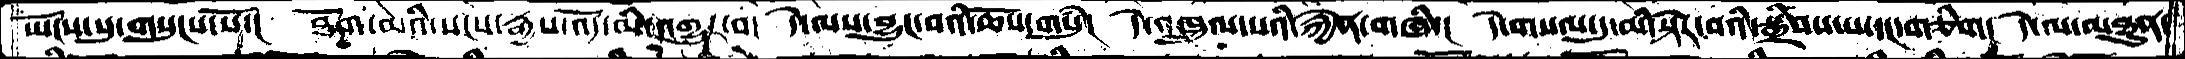ཡོངས་སུ་གསུངས་སོ་།  ཐོག་མའི་སངས་རྒྱས་འོད་མི་འགྱུར་བ།  དེ་ལས་བྱུང་བའི་ཆོས་གསུཾ།  དེ་འཁྲུལ་པའི་རྐྱེན་གཞི་།  དེ་གསལ་དུ་མི་སྟེར་བའི་སྒྲིབས་པ་དང་གཅིག།  དེ་ལ་མཐུན་
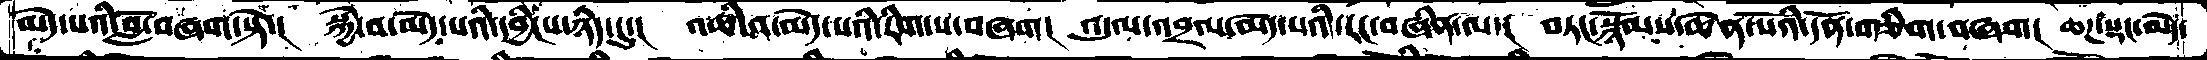མེད་པའི་བློ་བཞག་སྟེ་།  སྐྱེ་བ་མེད་པའི་དབྱིངས་ཉིད་དུ་།  འཆི་བ་མེད་པའི་རིག་པ་བཞག།  འདུལ་འབྲལ་མེད་པའི་རང་བཞིན་ལ་།  བཏང་སྙོམས་ཆེན་པོའི་དོན་གཅིག་བཞག།  ཆཌ་སྡང་མེད་
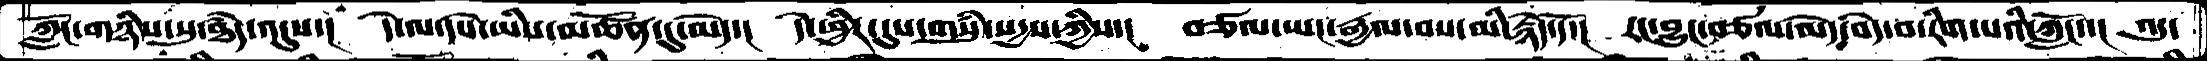ཀློང་གཉིས་སུ་ཐདཾ་འདུས་།  དེ་ལ་དཔེ་ཡིས་མཚོན་དུ་མེད་།  དེ་ཕྱིར་དུས་གསུཾ་སདྱས་ཀྱིས་།  བཙལ་ཡང་རྒྱལ་བས་མི་རྙེད་དོ་།  རང་བྱུང་བཙལ་མེད་བདེ་བ་རིག་པའི་ཀློང་་།  འདུ་
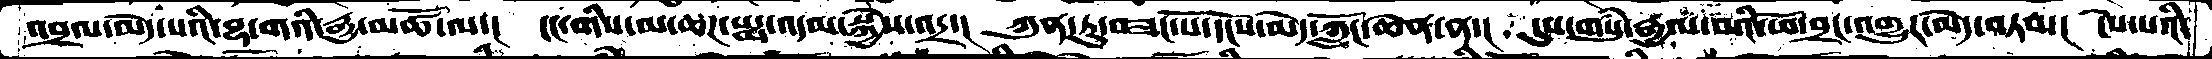འབྲལ་མེད་པའི་བྷ་གའི་རྒྱུ་མཚོ་ལ་།  ངང་གིས་མ་ཆཌ་པདྨ་འདམ་སྐྱེས་འདྲ་།  ཀུན་ཏུ་བཟང་པོ་དངོས་མེད་ཀློང་ཆེན་ན་།  དུས་གསུཾ་རྒྱལ་བའི་ཕོ་བྲང་འགྱུར་མེད་བཏབ།  ངེས་པའི་
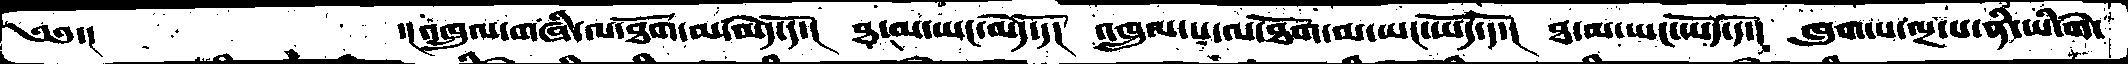༄༅་།      ་།འཁྲུལ་གཞི་ལ་ཐོག་མ་མེད་དོ།  ཐ་མ་ཡང་མེད་དོ།  འཁྲུལ་པ་ལ་ཐོག་མ་ཡང་ཡོད་དོ་།  ཐ་མ་ཡང་ཡོད་དོ་།  ཁུག་པ་ལྔ་པ་ནི་ཡི་གེ་
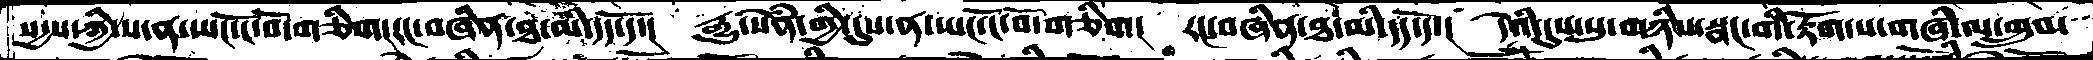སདྱས་ཀྱི་ས་ན་ཡང་ངོ་བོ་གཅིག་རང་བཞིན་ཐ་མི་དད་དོ་།  རྒྱུ་སེཾན་གྱི་དུས་ན་ཡང་ངོ་བོ་གཅིག།  རང་བཞིན་ཐ་མི་དད་དོ་།  དེའི་དུས་སུ་གཉིས་སྣང་གི་རྟོག་པ་གཞི་ལ་གྲུབ་
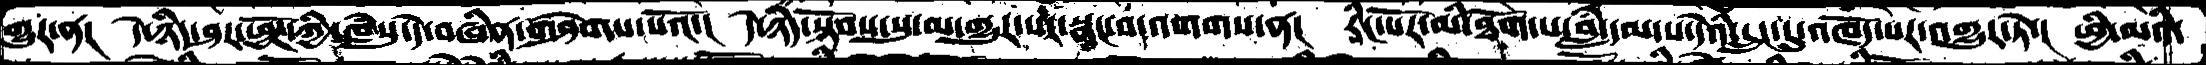གྱུར་ན།  དེ་ཉིད་ཤར་ཕྱོཌ་ཀྱི་ཁཾསུ་དེ་བཞིན་གཤེགས་པའོ་།  དེ་ཉིད་སྟོབས་སུ་མ་གྱུར་པར་སྣང་བ་འགགས་ན།  རིང་པོར་མི་ཐོག་པ་བླཾ་དམ་པ་དེའི་དྲུང་དུ་འཁོད་པར་འགྱུར་ཏེ་།   ཕྱི་མའི་
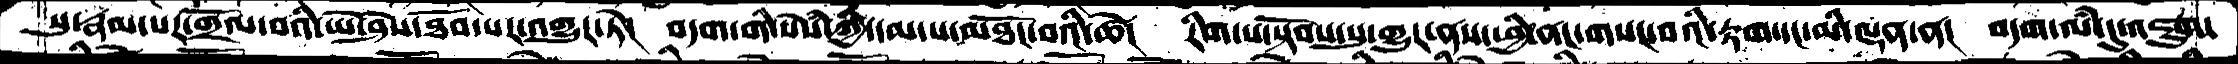སུ་རྣམ་པར་གྲོལ་བའི་ཡེ་ཤེས་ཐོབ་པར་འགྱུར་ཏེ།  བདག་གི་སེཾས་ཀྱི་དམ་པ་མཐོང་བའི་ཚེ།  རིག་པ་སྟོབས་སུ་གྱུར་ནས་ཕྱི་ནང་གསང་བའི་རྟག་དང་མི་ལྡན་ན།  བདག་ལཾ་དུ་འཇུག་
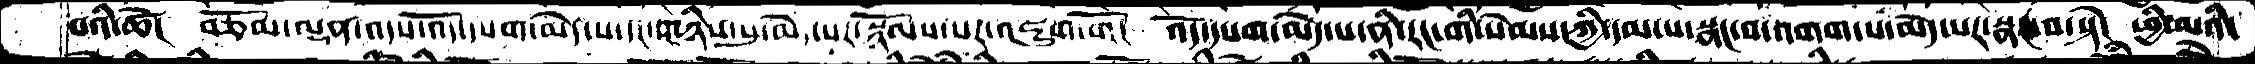པའི་ཚེ།  བཅོམ་ལྡན་འདས་འོད་དཔག་མེད་པ་དང་གཉིས་སུ་མེད་པར་སྙོམས་པར་འཇུག་གོ།  འོད་དཔག་མེད་པ་ནི་རང་གི་སེམས་ཀྱི་དམ་པ་སྣང་བ་འགག་པ་མེད་པར་སྣང་བ་སྟེ།  ཕྱི་མའི་
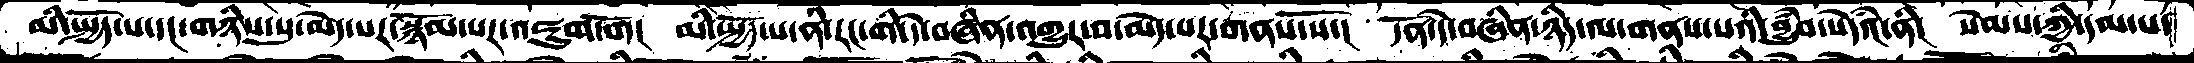མི་སྤྱོད་པདང་གཉིས་སུ་མེད་པར་སྙོམ་པར་འཇུག་གོ།  མི་སྤྱོད་པ་ནི་རང་གི་དེ་བཞིན་འགྱུར་བ་མེད་པར་གནས་སོ་།  དོན་དེ་བཞིན་ཉིད་ལ་གནས་པའི་བྱུཾབ་སེཾདའ་ནི།  སེམས་ཀྱི་དམ་པ་
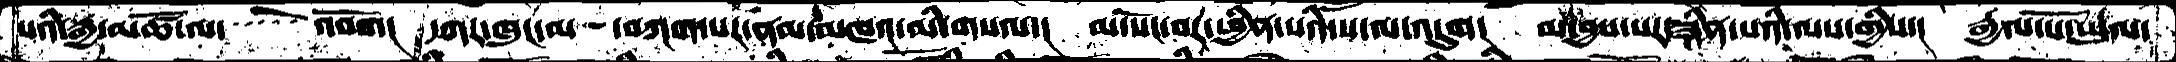པའི་རྒྱ་མཚོ་ལ་   འབོག།  དཀར་ཁུང་ལ  ་བཀག་པར་ནམ་མཁའ་མི་གསལ་།  མ་སོང་བར་ཕྱིན་པའི་ས་ལ་འདུག།  མ་བྱས་པར་ཟིན་པའི་ལས་གྱིས་།  རྒྱལ་པོ་ཡུལ་
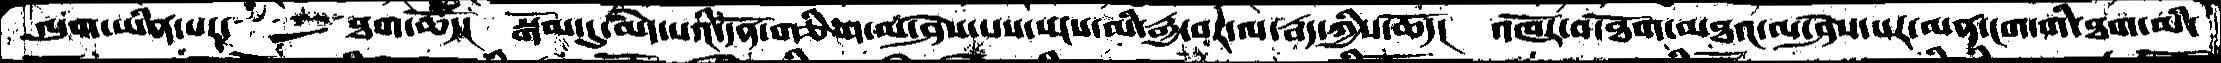ལུག་ཡིན་པར་   ཐག་ཆོད།  སྒོམ་དུ་མེད་པའི་དོན་གཅིག་མ་ཤེས་པས་སངས་མི་རྒྱ་བར་ལ་རྦད་ཀྱིས་ཆོད།  འཁོར་བ་ཐོག་མཐའ་ལ་ཤེས་པར་མན་ངག་གི་ཐག་མི་
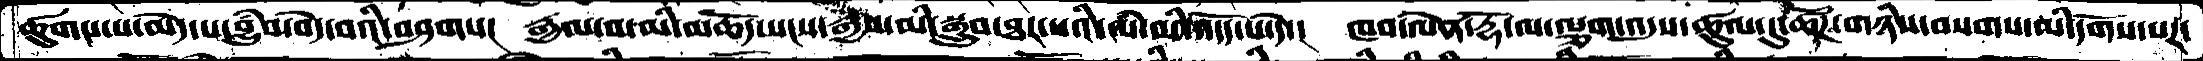ཚུགས་པ་མེད་པ་བྱུཾབ་བདེ་བའི་བཤགས།  རྒྱལ་བ་མི་མཆོད་སངས་རྒྱས་མི་སྒྲུབ་ཐར་པའི་ལཾ་མི་འདོད་པ་དེ་།  ཁབ་ལེན་རྡོ་ལ་ལྕག་འདུས་ཚུལ་དུ་ཚོཌ་གཉིས་བསགས་མི་དགོས་པར་
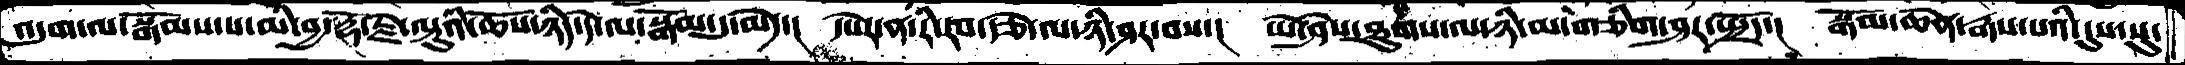འདུག་ལ་སྒོམས་པ་མི་བྱ་རྡོ་རྗེ་ལྟུའི་ཆོས་ཉིད་དེ་ལ་སྒོམ་དུ་མེད་།  དཔེར་ན་རི་རབ་རྩེེ་ལ་ཉི་ཤར་བས་།  ཡེ་ཤེས་ཐུགས་ལ་ཉི་མ་གཅིག་ཤར་སྤྲོད་།  སྒོམ་ཆེན་རྒས་པའི་དུས་སུ་
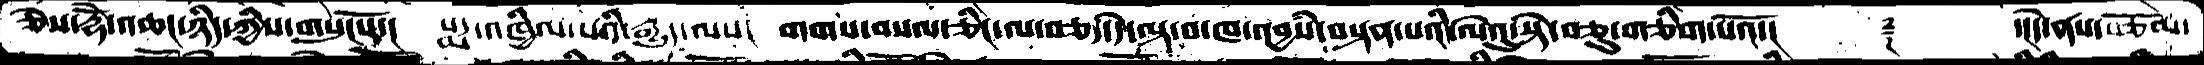ཅེས་རྡོེ་འཆང་ཉིད་ཀྱིས་གསུངསོ།  པདྨ་འཁྱིལ་པའི་རྒྱུད་ལས།  གགས་བསལ་ཅིང་ལ་བཅད་དེ་ལྟ་བ་ཁ་འབྱཾས་བསྟན་པའི་ལེའུ་སྟེ་བཅུ་གཅིག་པའོ་།   ࿑   ་།དེ་ནས་བཅོམ་
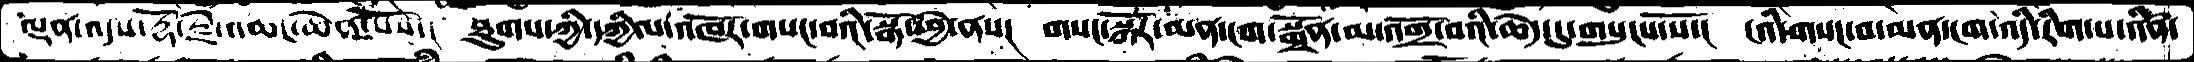ལྡན་འདས་རྡོ་རྗེ་འཆང་ཆེན་པོས་།  ཐུགས་ཀྱི་དཀྱིལ་འཁོར་གསང་བའི་སྒོ་ཕྱེ་ནས།  གསང་སྒོར་མན་ངག་སྒྲོན་མ་འགྲོ་བའི་ཆེད་དུ་གསུངས་སོ་།  ངའི་གསང་བ་མན་ངག་འདི་རིག་པ་འཛིན་
